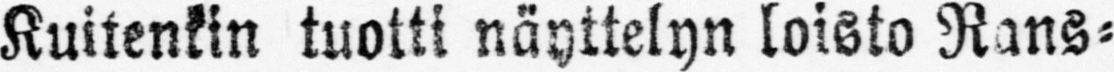Kuitenkin tuotti näyttelyn loisto Rans-
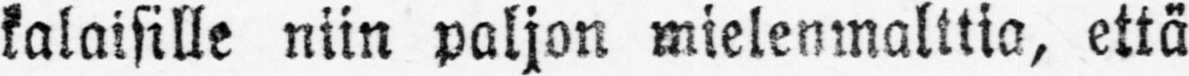kalaisille niin paljon mielenmalttia, että
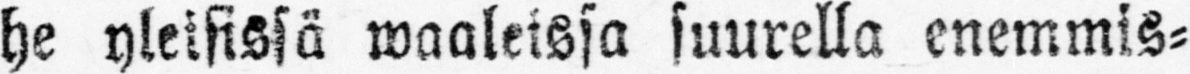he yleisissä waaleissa suurella enemmis-
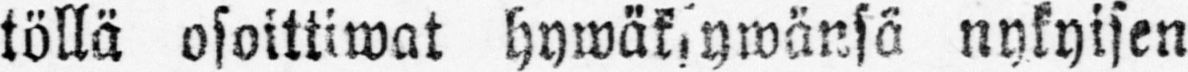töllä osoittiwat hywäksywänsä nykyisen
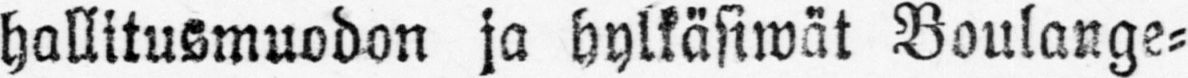hallitusmuodon ja hylkäsiwät Boulange-
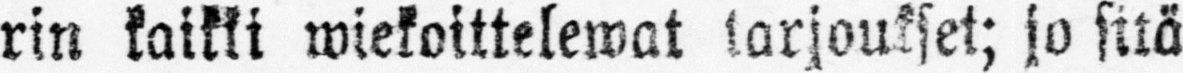rin kaikki wiekoittelewat tarjoukset; jo sitä
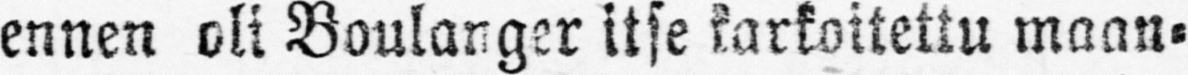ennen oli Boularger itse karkoitettu maan-
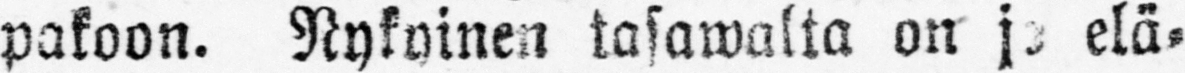pakoon. Nykyinen tasawalta on jo elä-
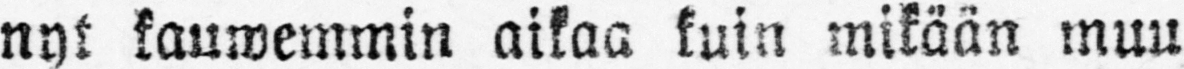nyt kauwemmin aikaa kuin mikään muu
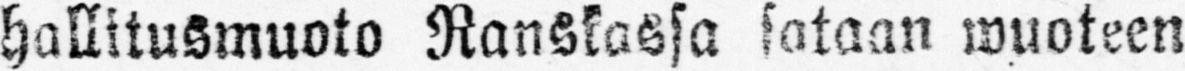hallitusmuoto Ranskassa sataan wuoteen
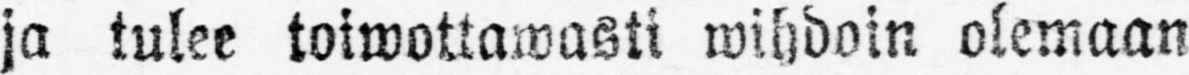ja tulee toiwottawasti wihdoin olemaan
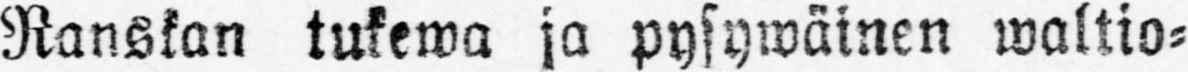Ranskan tukewa ja pysywäinen waltio-
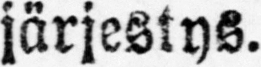järjestys.
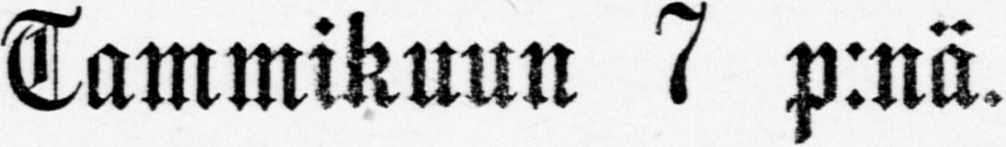Tammikuun 7 p:nä.
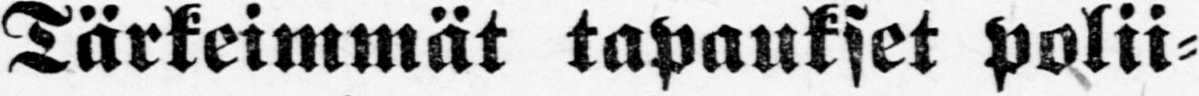Tärkeimmät tapaukset polii-
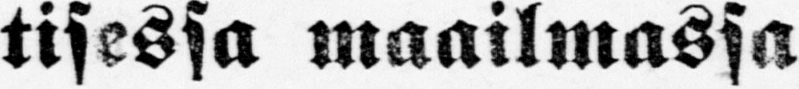tisessa maailmassa
